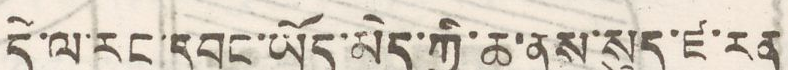དེ་ལ་རང་དབང་ཡོད་མེད་གྱི་ཆ་ནས་སུད་ཛ་རན
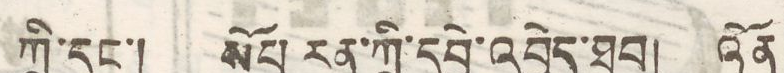ཀྲི་དང་། སོབ རན་ཀྲི་དབྱེ་འབྱེད་ཐུབ། འོན
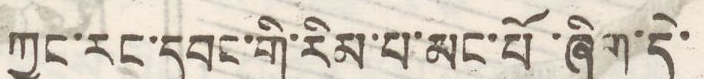ཀྱང་རང་དབང་གི་རིམ་པ་མང་པོ་ཞིག་དེ་
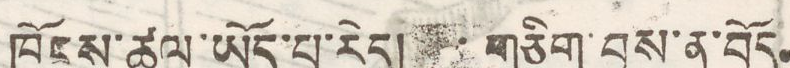ཁོངས་ཚུལ་ཡོད་པ་རེད་གཅིག་བྱས་ན་བོད
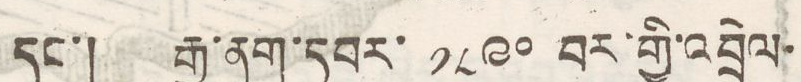དང་། རྒྱ་ནག་དབང་ ༡༨༩༠ བར་གྱི་འབྲེལ་
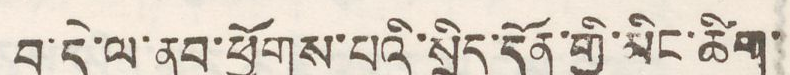བ་དེ་ལ་ནུབ་ཕྱོགས་པའི་སྲིད་དོན་གྱི་མིང་ཚིག་
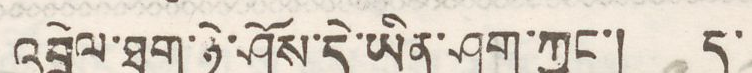འབྲེལ་ཐག་ཉེ་ཤོས་དེ་ཡིན་ཤག་ཀྱང་། ད་
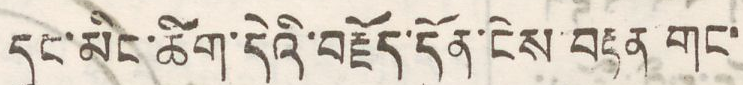དུང་མིང་ཚིག་དེའི་བརྗོད་དོན་ངེས་བརྟན གང་
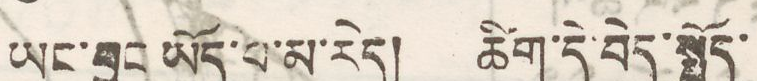ཡང་བྱུང་ཡོད་པ་མ་རེད། ཚིག་དེ་བདེ་སྤྱོད་
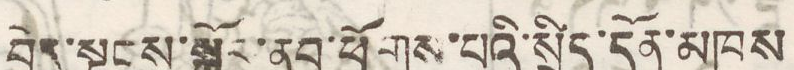བྱེད་སྟངས་སྐོར་ནུབ་ཕྱོགས་པའི་སྲིད་དོན་མཁས
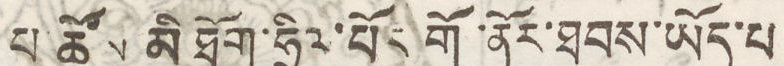པ་ཚོས་མི ཐོག་ཧྲིལ་པོར གོ་ནོར་ཐབས་ཡོད་པ
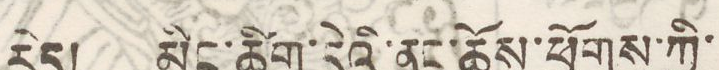རེད། མིང་ཚིག་དེའི་ནང་ཆོས་ཕྱོགས་ཀྱི་
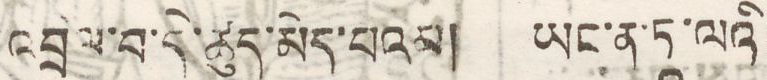འབྲེལ་བ་དེ་ཚུད་མེད་པའམ། ཡང་ན་ཏཱ་ལའི་
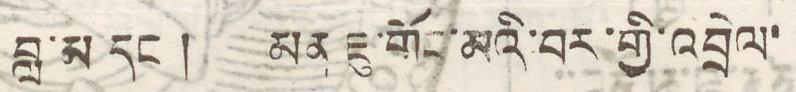བླ་མ དང་། མན ཇུ་གོང་མའི་བར་གྱི་འབྲེལ་
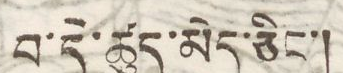བ་དེ་ཚུད་མེད་ཅིང་།
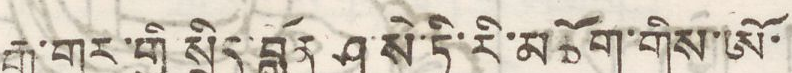རྒྱ་གར་གྱི སྲིད་བློན ཤ་སེ་ཏི་རི་མཆོག་གིས་ཨོ་
